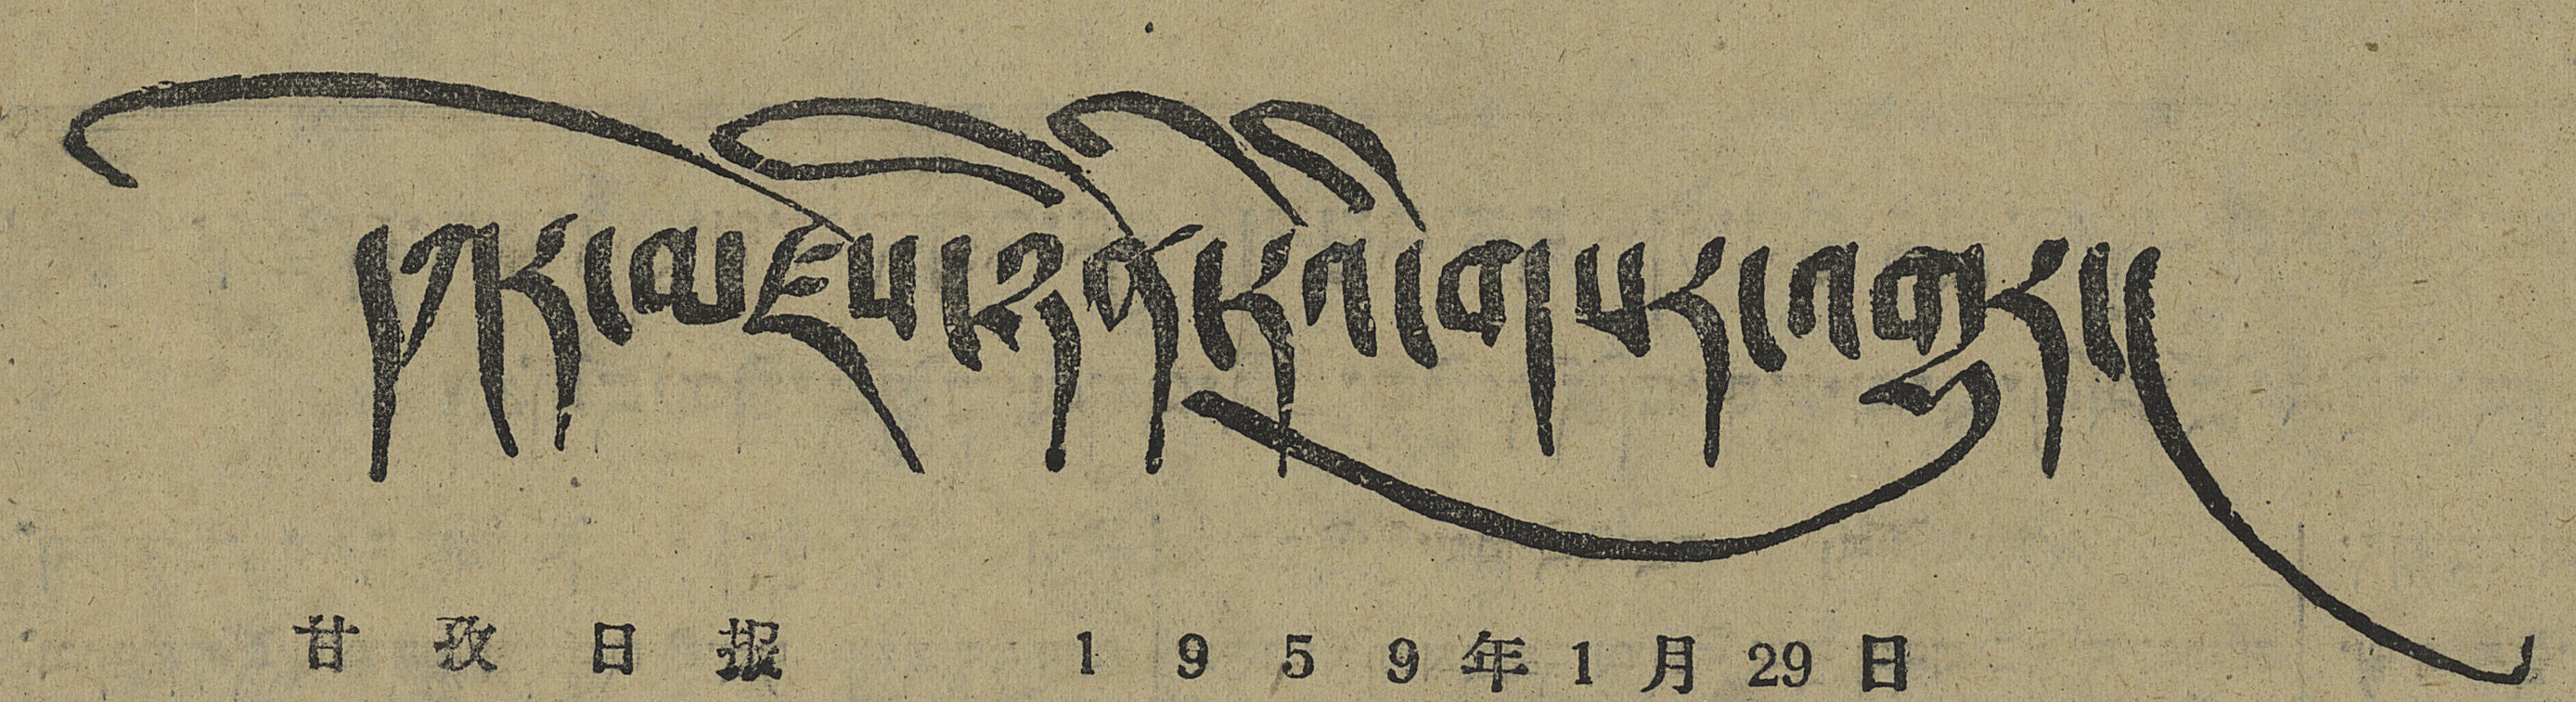དཀར་མཛེས་ཉིན་རེའི་གསར་འགྱུར།
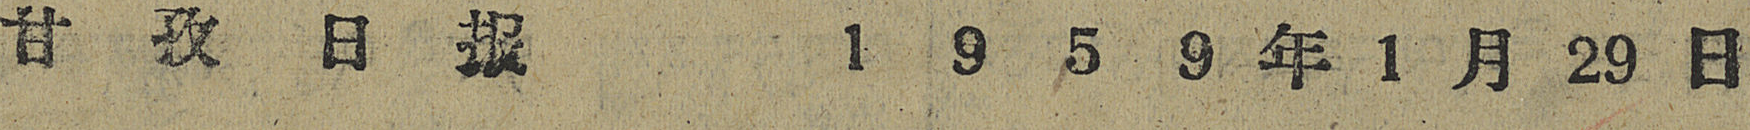甘 孜 日 报 1 9 5 9 年 1 月 29 日
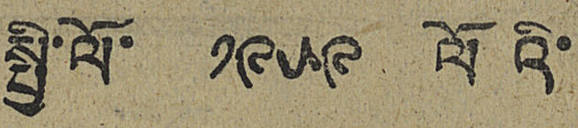སྤྱི་ལོ་ ༡༩༥༩ ལོའི་
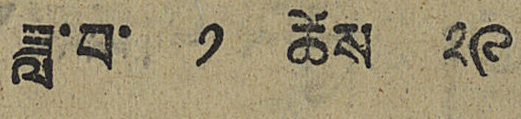ཟླ་བ་ ༡ ཚེས ༢༩
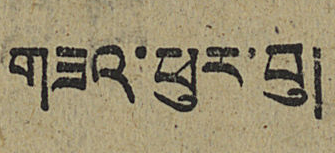གཟའ་ཕུར་བུ།
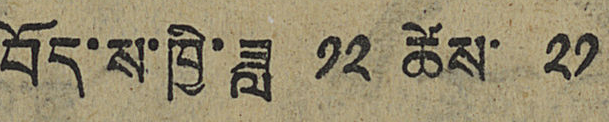བོད་ས་ཁྱི་ཟླ ༡༢ ཚེས ༢༡
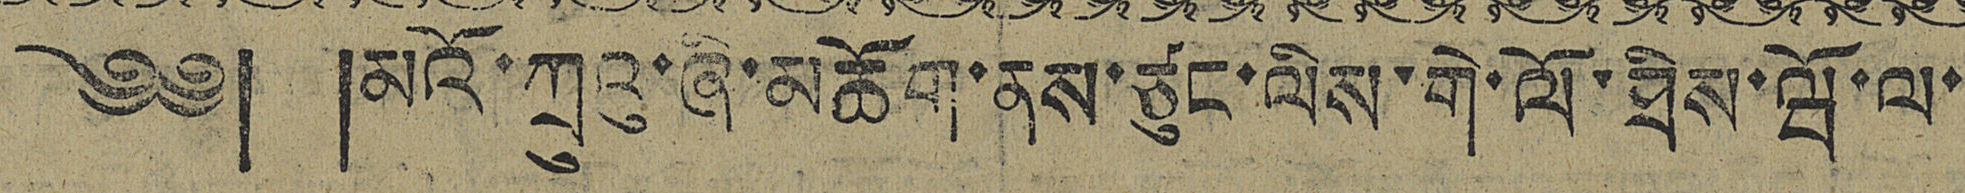༄༅། །མའོ་ཀྲུའུ་ཞི་མཆོག་ནས་ཙུང་ལིས་གེ་ལོ་ཐིས་ཝོ་ལ་
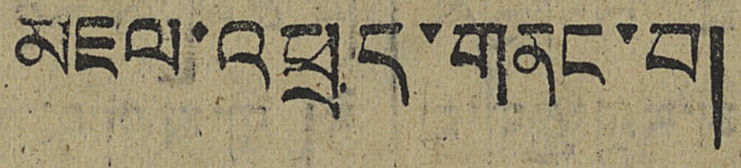མཇལ་འཕྲད་གནང་བ།
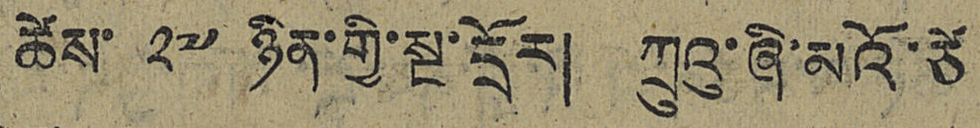ཚེས་ ༢༧ ཉིན་གྱི་སྔ་དྲོར། ཀྲུའུ་ཞི་མའོ་ཙེ
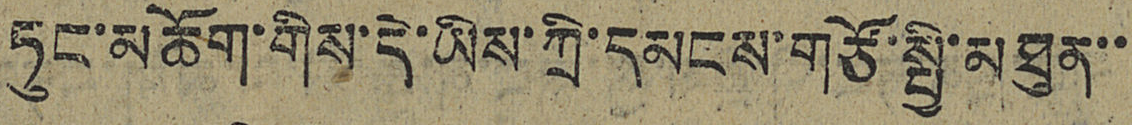ཏུང་མཆོག་གིས་དེ་ཡིས་ཀྲི་དམངས་གཙོ་སྤྱི་མཐུན་་
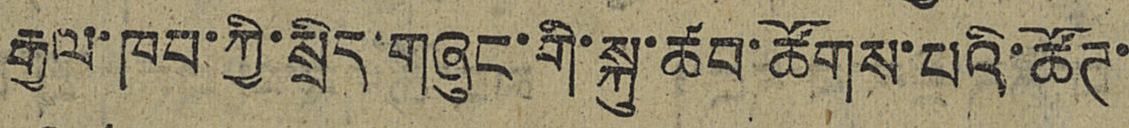རྒྱལ་ཁབ་ཀྱི་སྲིད་གཞུང་གི་སྐུ་ཚབ་ཚོགས་པའི་ཚོཊ་
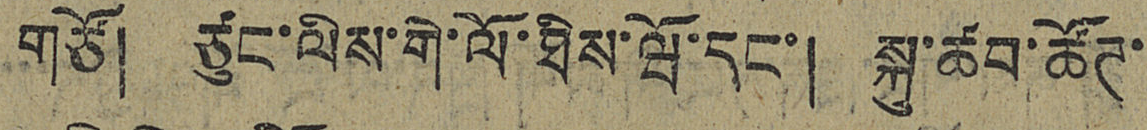གཙོ། ཙུང་ལིས་གེ་ལོ་ཐིས་ཝོ་དང་། སྐུ་ཚབ་ཚོཊ་
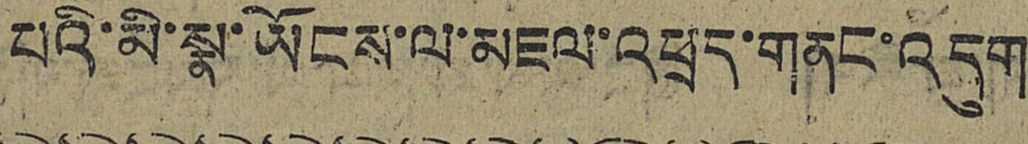པའི་མི་སྣ་ཡོངས་ལ་མཇལ་འཕྲད་གནང་འདུག
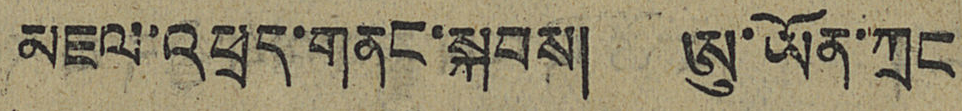མཇལ་འཕྲད་གནང་སྐབས། ཨུ་ཡོན་ཀྲང
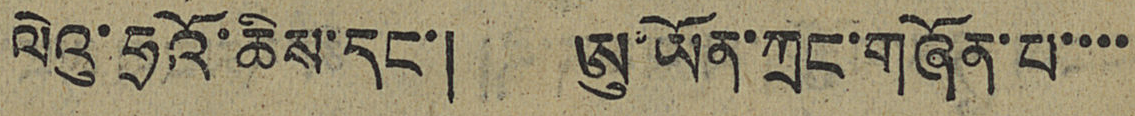ལེའུ་ཧྲའོ་ཆིས་དང་། ཨུ་ཡོན་ཀྲང་གཞོན་པ་་་་
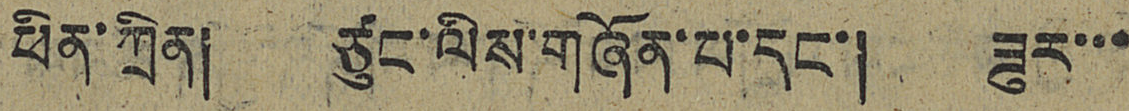ཕྱིན་ཀྲིན། ཙུང་ལིས་གཞོན་པ་དང་། ཟུར་་་
